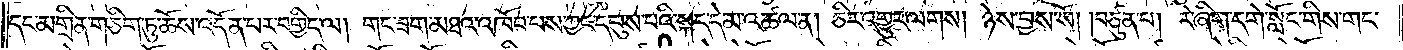དང་མགྲིན་གཅིག་ཏུ་ཆོས་འདོན་པར་བགྱིད་ལ། གང་ཟག་མཐའ་འཁོབ་པས་ཀྱང་དབུས་པའི་སྐད་དེ་མ་འཚལ་ན། ཅིར་འགྱུར་ལགས། ཉེས་བྱས་སོ། །བཙུན་པ། རེ་ཞིག་དགེ་སློང་གིས་གང་
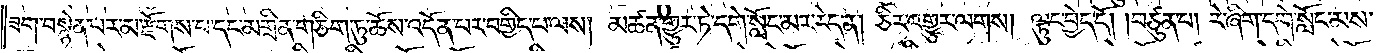ཟག་བསྙེན་པར་མ་རྫོགས་པ་དང་མགྲིན་གཅིག་ཏུ་ཆོས་འདོན་པར་བགྱིད་པ་ལས། མཚན་གྱུར་ཏེ་དགེ་སློང་མར་རེད་ན། ཅིར་འགྱུར་ལགས། ལྟུང་བྱེད་དོ། །བཙུན་པ། རེ་ཞིག་དགེ་སློང་མས་
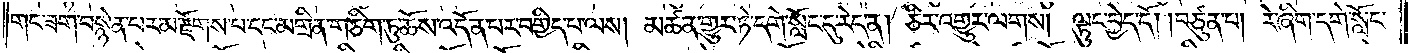གང་ཟག་བསྙེན་པར་མ་རྫོགས་པ་དང་མགྲིན་གཅིག་ཏུ་ཆོས་འདོན་པར་བགྱིད་པ་ལས། མཚན་གྱུར་ཏེ་དགེ་སློང་དུ་རེད་ན། ཅིར་འགྱུར་ལགས། ལྟུང་བྱེད་དོ། །བཙུན་པ། རེ་ཞིག་དགེ་སློང་
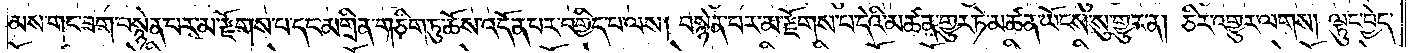མས་གང་ཟག་བསྙེན་པར་མ་རྫོགས་པ་དང་མགྲིན་གཅིག་ཏུ་ཆོས་འདོན་པར་བགྱིད་པ་ལས། བསྙེན་པར་མ་རྫོགས་པ་དེའི་མཚན་གྱུར་ཏེ་མཚན་ཡོངས་སུ་གྱུར་ན། ཅིར་འགྱུར་ལགས། ལྟུང་བྱེད་
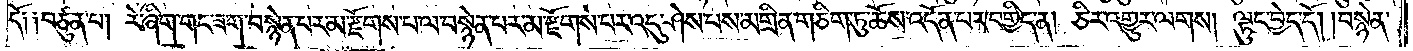དོ༑ ༑བཙུན་པ། རེ་ཞིག་གང་ཟག་བསྙེན་པར་མ་རྫོགས་པ་ལ་བསྙེན་པར་མ་རྫོགས་པར་འདུ་ཤེས་པས་མགྲིན་གཅིག་ཏུ་ཆོས་འདོན་པར་བགྱིད་ན། ཅིར་འགྱུར་ལགས། ལྟུང་བྱེད་དོ། །བསྙེན་
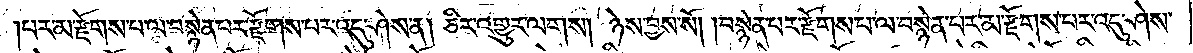པར་མ་རྫོགས་པ་ལ་བསྙེན་པར་རྫོགས་པར་འདུ་ཤེས་ན། ཅིར་འགྱུར་ལགས། ཉེས་བྱས་སོ། །བསྙེན་པར་རྫོགས་པ་ལ་བསྙེན་པར་མ་རྫོགས་པར་འདུ་ཤེས་
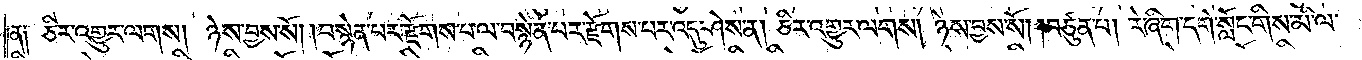ན༑ ཅིར་འགྱུར་ལགས། ཉེས་བྱས་སོ། །བསྙེན་པར་རྫོགས་པ་ལ་བསྙེན་པར་རྫོགས་པར་འདུ་ཤེས་ན། ཅིར་འགྱུར་ལགས། ཉེས་བྱས་སོ། །བཙུན་པ། རེ་ཞིག་དགེ་སློང་གིས་མི་ལ་
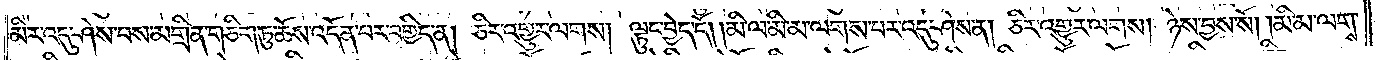མིར་འདུ་ཤེས་བས་མགྲིན་གཅིག་ཏུ་ཆོས་འདོན་པར་བགྱིད་ན། ཅིར་འགྱུར་ལགས། ལྟུང་བྱེད་དོ། །མི་ལ་མི་མ་ལགས་པར་འདུ་ཤེས་ན། ཅིར་འགྱུར་ལགས། ཉེས་བྱས་སོ། །མི་མ་ལགས་
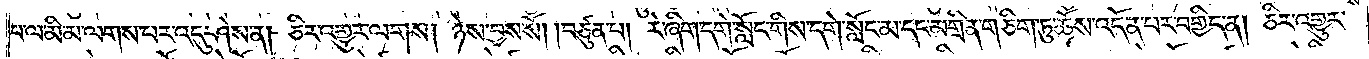པ་ལ་མི་མ་ལགས་པར་འདུ་ཤེས་ན། ཅིར་འགྱུར་ལགས། ཉེས་བྱས་སོ། །བཙུན་པ། རེ་ཞིག་དགེ་སློང་གིས་དགེ་སློང་མ་དང་མགྲིན་གཅིག་ཏུ་ཆོས་འདོན་པར་བགྱིད་ན། ཅིར་འགྱུར་
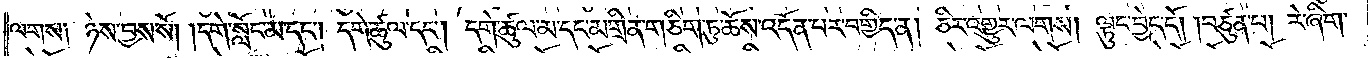ལགས། ཉེས་བྱས་སོ། །དགེ་སློང་མ་དང༌། དགེ་ཚུལ་དང༌། དགེ་ཚུལ་མ་དང་མགྲིན་གཅིག་ཏུ་ཆོས་འདོན་པར་བགྱིད་ན། ཅིར་འགྱུར་ལགས། ལྟུང་བྱེད་དོ། །བཙུན་པ། རེ་ཞིག་
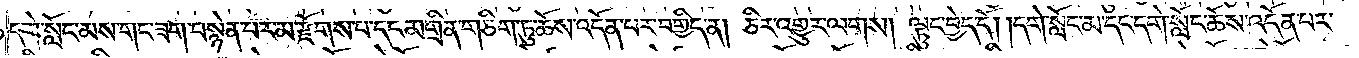དགེ་སློང་མས་གང་ཟག་བསྙེན་པར་མ་རྫོགས་པ་དང་མགྲིན་གཅིག་ཏུ་ཆོས་འདོན་པར་བགྱིད་ན། ཅིར་འགྱུར་ལགས། ལྟུང་བྱེད་དོ། །དགེ་སློང་མ་དང་དགེ་སློང་ཆོས་འདོན་པར་
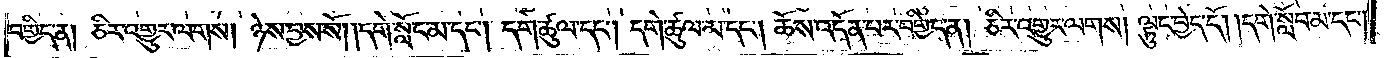བགྱིད་ན། ཅིར་འགྱུར་ལགས། ཉེས་བྱས་སོ། །དགེ་སློང་མ་དང༌། དགེ་ཚུལ་དང༌། དགེ་ཚུལ་མ་དང༌། ཆོས་འདོན་པར་བགྱིད་ན། ཅིར་འགྱུར་ལགས། ལྟུང་བྱེད་དོ། །དགེ་སློབ་མ་དང༌།
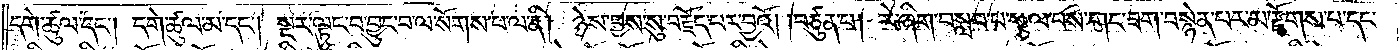དགེ་ཚུལ་དང༌། དགེ་ཚུལ་མ་དང༌། སྔར་ལྟུང་བ་བྱུང་བ་ལ་སོགས་པ་ལ་ནི། ཉེས་བྱས་སུ་བརྗོད་པར་བྱའོ། །བཙུན་པ། རེ་ཞིག་བསླབ་པ་སྩལ་པས་གང་ཟག་བསྙེན་པར་མ་རྫོགས་པ་དང་
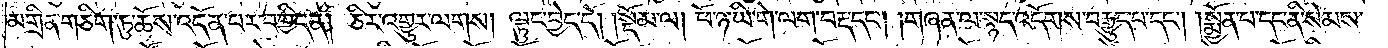མགྲིན་གཅིག་ཏུ་ཆོས་འདོན་པར་བགྱིད་ན། ཅིར་འགྱུར་ལགས། ལྟུང་བྱེད་དོ། །སྡོམ་ལ། ཕོ་ཉ་ཡི་གེ་ལག་བརྡ་དང༌། །གཞན་ལ་སྙད་འདོགས་བརྒྱུད་པ་དང༌། །སྨྱོན་པ་དང་ནི་སེམས་
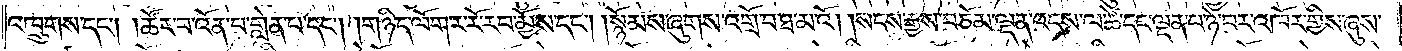འཁྲུགས་དང༌། །ཚོར་བ་འོན་པ་གླེན་པ་དང༌། །གཉིད་ལོག་ར་རོ་རབ་མྱོས་དང༌། །སྙོམས་ཞུགས་འགྲོ་བ་ཐ་མའོ། །སངས་རྒྱས་བཅོམ་ལྡན་འདས་ལ་ཚེ་དང་ལྡན་པ་ཉེ་བར་འཁོར་གྱིས་ཞུས་
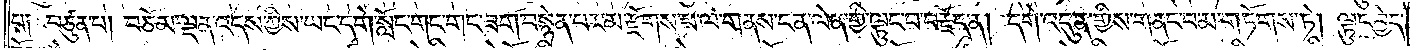པ༑ བཙུན་པ། བཅོམ་ལྡན་འདས་ཀྱིས་ཡང་དགེ་སློང་གང་གང་ཟག་བསྙེན་པར་མ་རྫོགས་པ་ལ་གནས་ངན་ལེན་གྱི་ལྟུང་བ་བརྗོད་ན། དགེ་འདུན་གྱིས་གནང་བ་མ་གཏོགས་ཏེ། ལྟུང་བྱེད་
